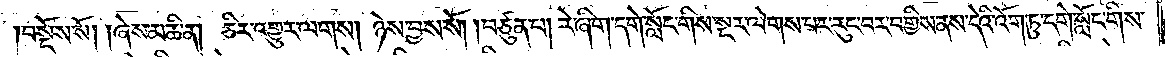བསྔོས་སོ། །ཞེས་མཆི་ན། ཅིར་འགྱུར་ལགས། ཉེས་བྱས་སོ། །བཙུན་པ། རེ་ཞིག་དགེ་སློང་གིས་སྔར་ལེགས་པར་རུང་བར་བགྱིས་ནས་དེའི་འོག་ཏུ་དགེ་སློང་གིས་
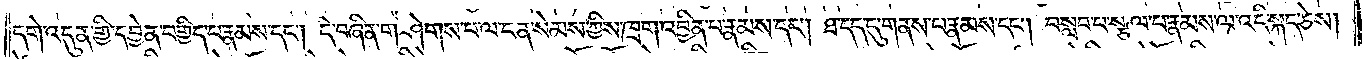དགེ་འདུན་གྱི་དབྱེན་བགྱིད་པ་རྣམས་དང༌། དེ་བཞིན་གཤེགས་པ་ལ་ངན་སེམས་ཀྱིས་ཁྲག་འབྱིན་པ་རྣམས་དང༌། ཐ་དད་དུ་གནས་པ་རྣམས་དང༌། བསླབ་པ་སྩལ་པ་རྣམས་ལ་འདི་སྐད་ཅེས།
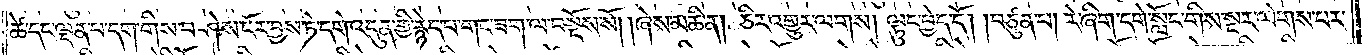ཚེ་དང་ལྡན་པ་དག་གིས་བཤེས་ངོར་བྱས་ཏེ་དགེ་འདུན་གྱི་རྙེད་པ་གང་ཟག་ལ་བསྔོས་སོ། །ཞེས་མཆི་ན། ཅིར་འགྱུར་ལགས། ལྟུང་བྱེད་དོ། །བཙུན་པ། རེ་ཞིག་དགེ་སློང་གིས་སྔར་ལེགས་པར་
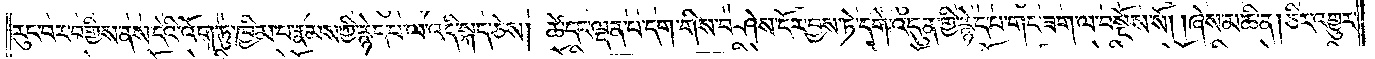རུང་བར་བགྱིས་ནས་དེའི་འོག་ཏུ་ཁྱིམ་པ་རྣམས་ཀྱི་རྙེད་པ་ལ་འདི་སྐད་ཅེས། ཚེ་དང་ལྡན་པ་དག་གིས་བཤེས་ངོར་བྱས་ཏེ་དགེ་འདུན་གྱི་རྙེད་པ་གང་ཟག་ལ་བསྔོས་སོ། །ཞེས་མཆི་ན། ཅིར་འགྱུར་
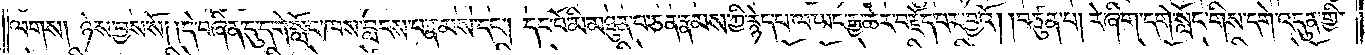ལགས། ཉེས་བྱས་སོ། །དེ་བཞིན་དུ་དགེ་སློང་ཁས་བླངས་པ་རྣམས་དང༌། དང་པོ་མི་མཐུན་པ་ཅན་རྣམས་ཀྱི་རྙེད་པ་ལ་ཡང་རྒྱ་ཆེར་བརྗོད་པར་བྱའོ། །བཙུན་པ། རེ་ཞིག་དགེ་སློང་གིས་དགེ་འདུན་གྱི་
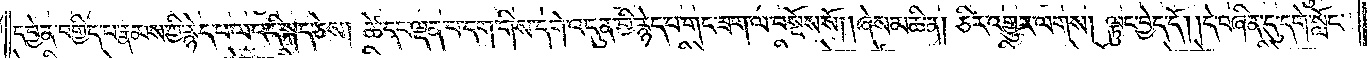དབྱེན་བགྱིད་པ་རྣམས་ཀྱི་རྙེད་པ་ལ་འདི་སྐད་ཅེས། ཚེ་དང་ལྡན་པ་དག་གིས་དགེ་འདུན་གྱི་རྙེད་པ་གང་ཟག་ལ་བསྔོས་སོ། །ཞེས་མཆི་ན། ཅིར་འགྱུར་ལགས། ལྟུང་བྱེད་དོ། །དེ་བཞིན་དུ་དགེ་སློང་
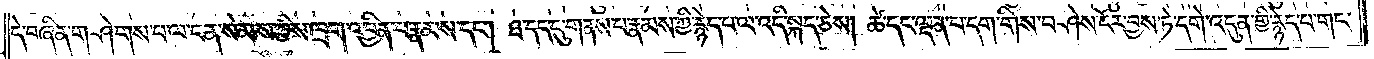དེ་བཞིན་གཤེགས་པ་ལ་ངན་སེམས་ཀྱིས་ཁྲག་འབྱིན་པ་རྣམས་དང༌། ཐ་དད་དུ་གནས་པ་རྣམས་ཀྱི་རྙེད་པ་ལ་འདི་སྐད་ཅེས། ཚེ་དང་ལྡན་པ་དག་གིས་བཤེས་ངོར་བྱས་ཏེ་དགེ་འདུན་གྱི་རྙེད་པ་གང་
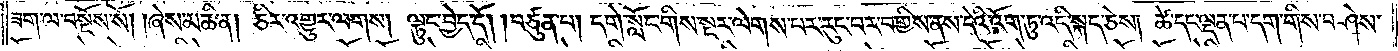ཟག་ལ་བསྔོས་སོ། །ཞེས་མཆིན་ན། ཅིར་འགྱུར་ལགས། ལྟུང་བྱེད་དོ། །བཙུན་པ། དགེ་སློང་གིས་སྔར་ལེགས་པར་རུང་བར་བགྱིས་ནས་དེའི་འོག་ཏུ་འདི་སྐད་ཅེས། ཚེ་དང་ལྡན་པ་དག་གིས་བཤེས་
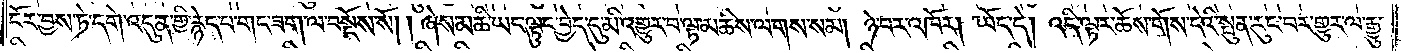ངོར་བྱས་ཏེ་དགེ་འདུན་གྱི་རྙེད་པ་གང་ཟག་ལ་བསྔོས་སོ། །ཞེས་མཆི་ཡང་ལྟུང་བྱེད་དུ་མི་འགྱུར་བ་ལྟ་མཆིས་ལགས་སམ། ཉེ་བར་འཁོར། ཡོད་དེ། འདི་ལྟར་ཆོས་གོས་དེའི་སྤུན་རུང་བར་གྱུར་ལ་རྒྱུ་
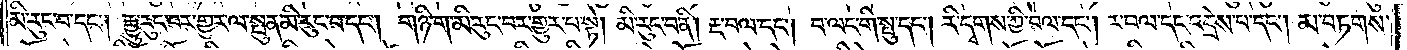མི་རུང་བ་དང༌། རྒྱུ་རུང་བར་གྱུར་ལ་སྤུན་མི་རུང་བ་དང༌། གཉི་ག་མི་རུང་བར་གྱུར་པ་སྟེ། མི་རུང་བ་ནི། རྔ་བལ་དང༌། བ་ལང་གི་སྤུ་དང༌། རི་དྭགས་ཀྱི་བལ་དང༌། ར་བལ་དང་འདྲེས་པ་དང༌། མ་བཏགས་
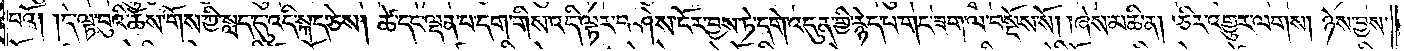པའོ། །དེ་ལྟ་བུའི་ཆོས་གོས་ཀྱི་སླད་དུ་འདི་སྐད་ཅེས། ཚེ་དང་ལྡན་པ་དག་གིས་འདི་ལྟར་བཤེས་ངོར་བྱས་ཏེ་དགེ་འདུན་གྱི་རྙེད་པ་གང་ཟག་ལ་བསྔོས་སོ། །ཞེས་མཆི་ན། ཅིར་འགྱུར་ལགས། ཉེས་བྱས་
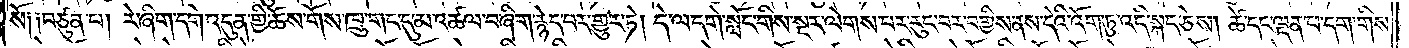སོ༑ ༑བཙུན་པ། རེ་ཞིག་དགེ་འདུན་གྱི་ཆོས་གོས་ཁྲུ་གང་དུ་མ་འཚལ་བ་ཞིག་རྙེད་པར་གྱུར་ཏེ། དེ་ལ་དགེ་སློང་གིས་སྔར་ལེགས་པར་རུང་བར་བགྱིས་ནས་དེའི་འོག་ཏུ་འདི་སྐད་ཅེས། ཚེ་དང་ལྡན་པ་དག་གིས་
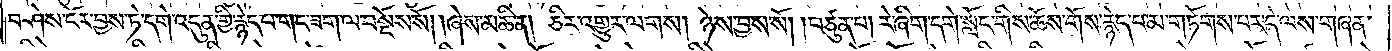བཤེས་ངོར་བྱས་ཏེ་དགེ་འདུན་གྱི་རྙེད་པ་གང་ཟག་ལ་བསྔོས་སོ། །ཞེས་མཆིན། ཅིར་འགྱུར་ལགས། ཉེས་བྱས་སོ། །བཙུན་པ། རེ་ཞིག་དགེ་སློང་གིས་ཆོས་གོས་རྙེད་པ་མ་གཏོགས་པར་དེ་ལས་གཞན་
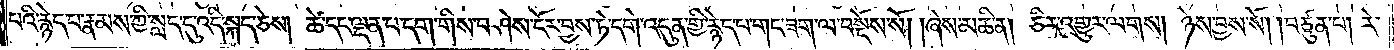པའི་རྙེད་པ་རྣམས་ཀྱི་སླད་དུ་འདི་སྐད་ཅེས། ཚེ་དང་ལྡན་པ་དག་གིས་བཤེས་ངོར་བྱས་ཏེ་དགེ་འདུན་གྱི་རྙེད་པ་གང་ཟག་ལ་བསྔོས་སོ། །ཞེས་མཆི་ན། ཅིར་འགྱུར་ལགས། ཉེས་བྱས་སོ། །བཙུན་པ། རེ་
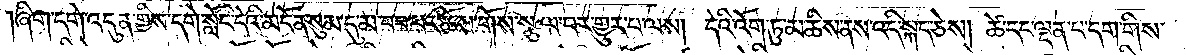།ཞིག་དགེ་འདུན་གྱིས་དགེ་སློང་དེའི་མངོན་སུམ་དུ་མ་བབ་པར་ཆོས་གོས་སྩལ་བར་འགྱུར་པ་ལས། དེའི་འོག་ཏུ་མཆིས་ནས་འདི་སྐད་ཅེས། ཚེ་དང་ལྡན་པ་དག་གིས་
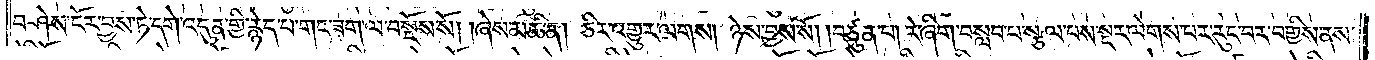བཤེས་ངོར་བྱས་ཏེ་དགེ་འདུན་གྱི་རྙེད་པ་གང་ཟག་ལ་བསྔོས་སོ། །ཞེས་མཆི་ན། ཅིར་འགྱུར་ལགས། ཉེས་བྱས་སོ། །བཙུན་པ། རེ་ཞིག་བསླབ་པ་སྩལ་པས་སྔར་ལེགས་པར་རུང་བར་བགྱིས་ནས་
